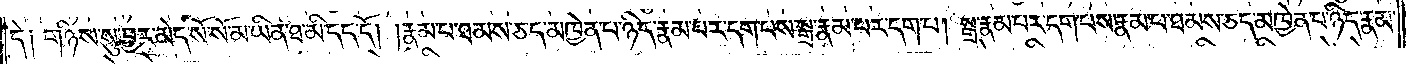དེ༑ གཉིས་སུ་བྱར་མེད་སོ་སོ་མ་ཡིན་ཐ་མི་དད་དོ། །རྣམ་པ་ཐམས་ཅད་མཁྱེན་པ་ཉིད་རྣམ་པར་དག་པས་སྒྲ་རྣམ་པར་དག་པ། སྒྲ་རྣམ་པར་དག་པས་རྣམ་པ་ཐམས་ཅད་མཁྱེན་པ་ཉིད་རྣམ་
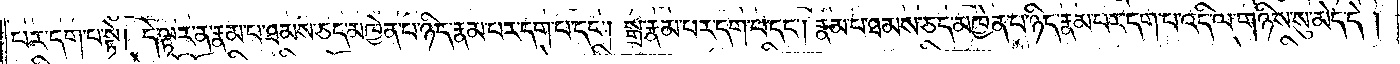པར་དག་པ་སྟེ། དེ་ལྟར་ན་རྣམ་པ་ཐམས་ཅད་མཁྱེན་པ་ཉིད་རྣམ་པར་དག་པ་དང༌། སྒྲ་རྣམ་པར་དག་པ་དང༌། རྣམ་པ་ཐམས་ཅད་མཁྱེན་པ་ཉིད་རྣམ་པར་དག་པ་འདི་ལ་གཉིས་སུ་མེད་དེ།
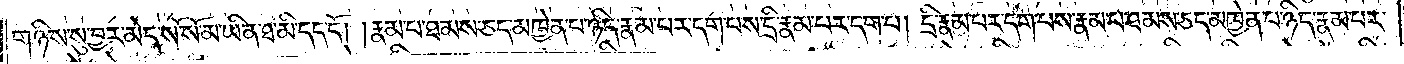གཉིས་སུ་བྱར་མེད་སོ་སོ་མ་ཡིན་ཐ་མི་དད་དོ། །རྣམ་པ་ཐམས་ཅད་མཁྱེན་པ་ཉིད་རྣམ་པར་དག་པས་དྲི་རྣམ་པར་དག་པ། དྲི་རྣམ་པར་དག་པས་རྣམ་པ་ཐམས་ཅད་མཁྱེན་པ་ཉིད་རྣམ་པར་
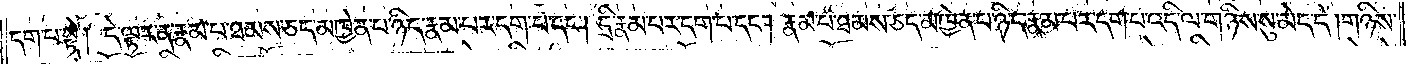དག་པ་སྟེ། དེ་ལྟར་ན་རྣམ་པ་ཐམས་ཅད་མཁྱེན་པ་ཉིད་རྣམ་པར་དག་པ་དང༌། དྲི་རྣམ་པར་དག་པ་དང༌། རྣམ་པ་ཐམས་ཅད་མཁྱེན་པ་ཉིད་རྣམ་པར་དག་པ་འདི་ལ་གཉིས་སུ་མེད་དེ། གཉིས་
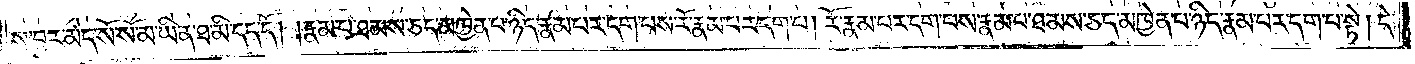སུ་བྱར་མེད་སོ་སོ་མ་ཡིན་ཐ་མི་དད་དོ། །རྣམ་པ་ཐམས་ཅད་མཁྱེན་པ་ཉིད་རྣམ་པར་དག་པས་རོ་རྣམ་པར་དག་པ། རོ་རྣམ་པར་དག་པས་རྣམ་པ་ཐམས་ཅད་མཁྱེན་པ་ཉིད་རྣམ་པར་དག་པ་སྟེ། དེ་
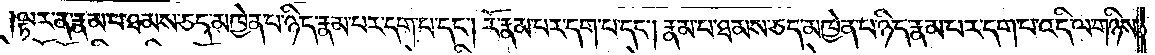ལྟར་ན་རྣམ་པ་ཐམས་ཅད་མཁྱེན་པ་ཉིད་རྣམ་པར་དག་པ་དང༌། རོ་རྣམ་པར་དག་པ་དང༌། རྣམ་པ་ཐམས་ཅད་མཁྱེན་པ་ཉིད་རྣམ་པར་དག་པ་འདི་ལ་གཉིས་
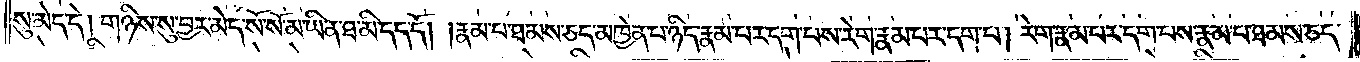སུ་མེད་དེ། གཉིས་སུ་བྱར་མེད་སོ་སོ་མ་ཡིན་ཐ་མི་དད་དོ། །རྣམ་པ་ཐམས་ཅད་མཁྱེན་པ་ཉིད་རྣམ་པར་དག་པས་རེག་རྣམ་པར་དག་པ། རེག་རྣམ་པར་དག་པས་རྣམ་པ་ཐམས་ཅད་
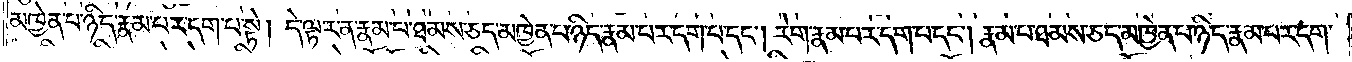མཁྱེན་པ་ཉིད་རྣམ་པར་དག་པ་སྟེ། དེ་ལྟར་ན་རྣམ་པ་ཐམས་ཅད་མཁྱེན་པ་ཉིད་རྣམ་པར་དག་པ་དང༌། རེག་རྣམ་པར་དག་པ་དང༌། རྣམ་པ་ཐམས་ཅད་མཁྱེན་པ་ཉིད་རྣམ་པར་དག་
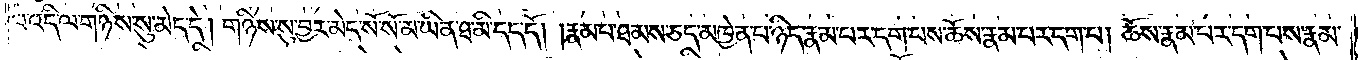པ་འདི་ལ་གཉིས་སུ་མེད་དེ། གཉིས་སུ་བྱར་མེད་སོ་སོ་མ་ཡིན་ཐ་མི་དད་དོ། །རྣམ་པ་ཐམས་ཅད་མཁྱེན་པ་ཉིད་རྣམ་པར་དག་པས་ཆོས་རྣམ་པར་དག་པ། ཆོས་རྣམ་པར་དག་པས་རྣམ་
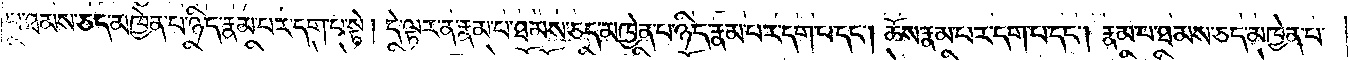པ་ཐམས་ཅད་མཁྱེན་པ་ཉིད་རྣམ་པར་དག་པ་སྟེ། དེ་ལྟར་ན་རྣམ་པ་ཐམས་ཅད་མཁྱེན་པ་ཉིད་རྣམ་པར་དག་པ་དང༌། ཆོས་རྣམ་པར་དག་པ་དང༌། རྣམ་པ་ཐམས་ཅད་མཁྱེན་པ་
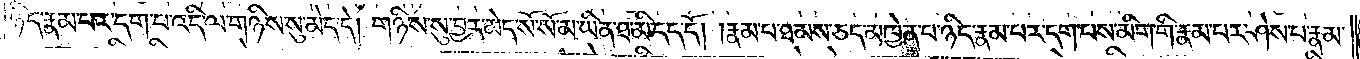ཉིད་རྣམ་པར་དག་པ་འདི་ལ་གཉིས་སུ་མེད་དེ། གཉིས་སུ་བྱར་མེད་སོ་སོ་མ་ཡིན་ཐ་མི་དད་དོ། །རྣམ་པ་ཐམས་ཅད་མཁྱེན་པ་ཉིད་རྣམ་པར་དག་པས་མིག་གི་རྣམ་པར་ཤེས་པ་རྣམ་
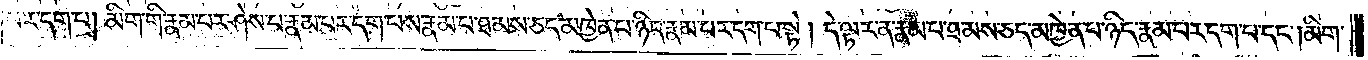པར་དག་པ། མིག་གི་རྣམ་པར་ཤེས་པ་རྣམ་པར་དག་པས་རྣམ་པ་ཐམས་ཅད་མཁྱེན་པ་ཉིད་རྣམ་པར་དག་པ་སྟེ། དེ་ལྟར་ན་རྣམ་པ་ཐམས་ཅད་མཁྱེན་པ་ཉིད་རྣམ་པར་དག་པ་དང༌། མིག་
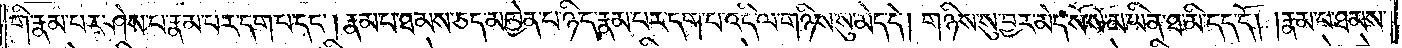གི་རྣམ་པར་ཤེས་པ་རྣམ་པར་དག་པ་དང༌། རྣམ་པ་ཐམས་ཅད་མཁྱེན་པ་ཉིད་རྣམ་པར་དག་པ་འདི་ལ་གཉིས་སུ་མེད་དེ། གཉིས་སུ་བྱར་མེད་སོ་སོ་མ་ཡིན་ཐ་མི་དད་དོ། །རྣམ་པ་ཐམས་
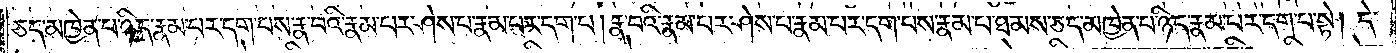ཅད་མཁྱེན་པ་ཉིད་རྣམ་པར་དག་པས་རྣ་བའི་རྣམ་པར་ཤེས་པ་རྣམ་པར་དག་པ། རྣ་བའི་རྣམ་པར་ཤེས་པ་རྣམ་པར་དག་པས་རྣམ་པ་ཐམས་ཅད་མཁྱེན་པ་ཉིད་རྣམ་པར་དག་པ་སྟེ། དེ་
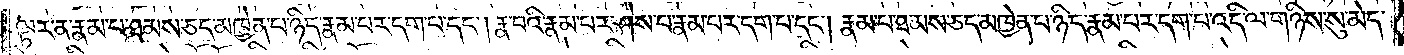ལྟར་ན་རྣམ་པ་ཐམས་ཅད་མཁྱེན་པ་ཉིད་རྣམ་པར་དག་པ་དང༌། རྣ་བའི་རྣམ་པར་ཤེས་པ་རྣམ་པར་དག་པ་དང༌། རྣམ་པ་ཐམས་ཅད་མཁྱེན་པ་ཉིད་རྣམ་པར་དག་པ་འདི་ལ་གཉིས་སུ་མེད་
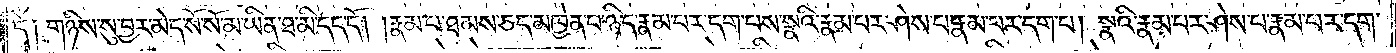དེ༑ གཉིས་སུ་བྱར་མེད་སོ་སོ་མ་ཡིན་ཐ་མི་དད་དོ། །རྣམ་པ་ཐམས་ཅད་མཁྱེན་པ་ཉིད་རྣམ་པར་དག་པས་སྣའི་རྣམ་པར་ཤེས་པ་རྣམ་པར་དག་པ། སྣའི་རྣམ་པར་ཤེས་པ་རྣམ་པར་དག་
